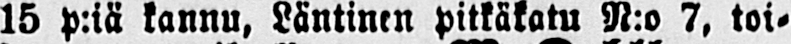15 P:iä kannu, Läntinen pitkäkatu N:o 7, toi-
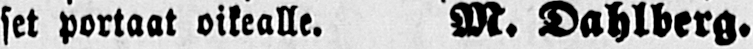set portaat oikealle. M. Dahlberg.
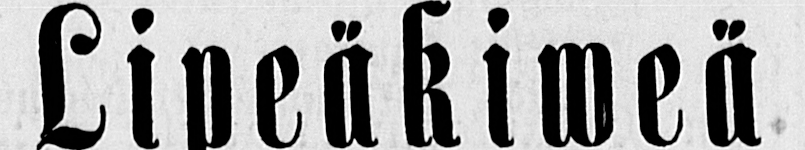Lipeäkiweä
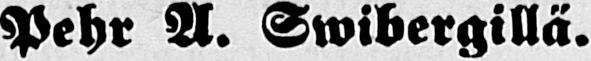Pehr A. Swibergillä.
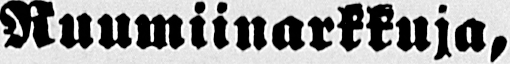Ruumiinarkkuja,
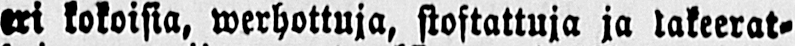eri kokoisia, werhottuja, stoftattuja ja takeerat-
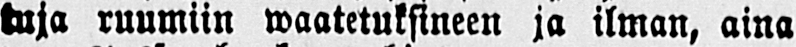tnja ruumiin waatetuksineen ja ilman, aina
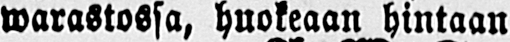warastossa, huokeaan hintaan
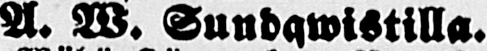A. W. Suudqwistilla.
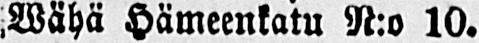Wähä Hämeenkatu N:o 10.
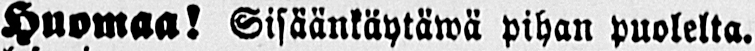Huomaa! Sisäänkäytäwä pihan puolelta.
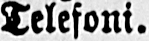Telefoni.
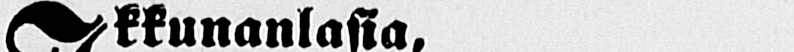Ikkunanlasia,
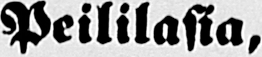Peililasia,
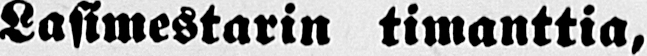Lasimestarin timanttia,
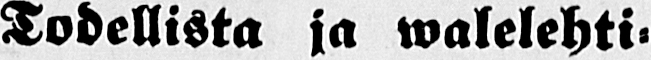Todellista ja walelehti-
